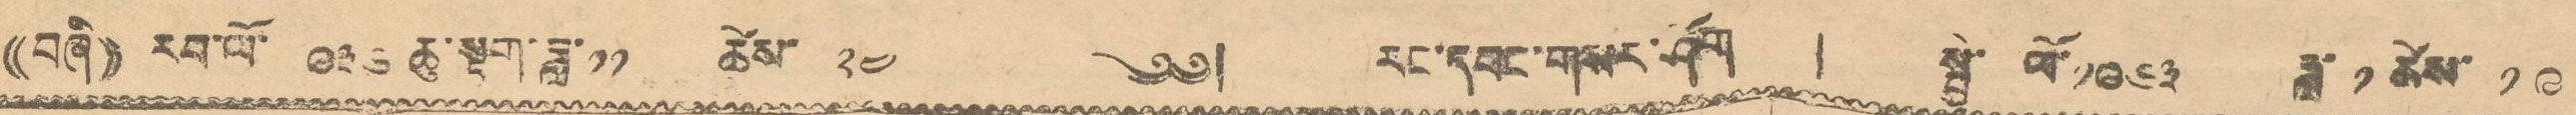((བཞི་)) རབ་ལོ་ ༩༣༦ ཆུ་སྟག་ཟླ་ ༡༡ ཚེས་ ༢༤ ༄༅། རང་དབང་གསར་ཤོག ། སྤྱི་ལོ་ ༡༩༦༣ ཟླ་ ༡ ཚེས་ ༡༩
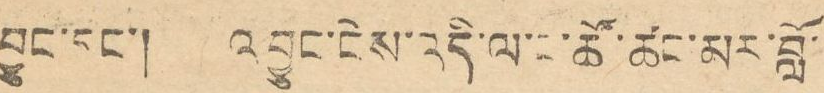བྱུང་དང་། འབྱུང་ངེས་འདི་ལ་ང་ཚོ་ཚང་མར་བློ་
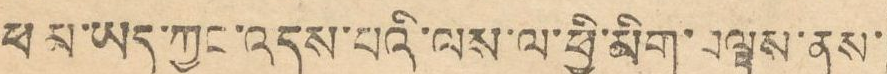ཕམ་ཡད་ཀྱང་འདས་པའི་ལས་ལ་ཕྱི་མིག་བལྟས་ནས་
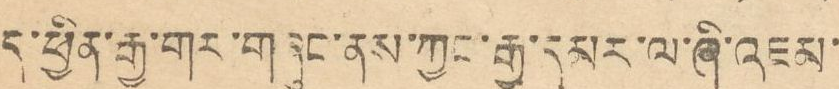ད་ཕྱིན་རྒྱ་གར་གཞུང་ནས་ཀྱང་རྒྱ་དམར་ལ་ཞི་འཇམ་
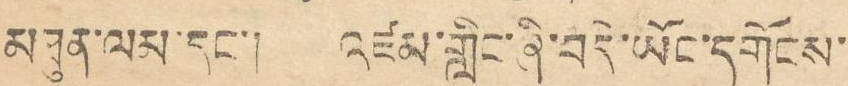མཐུན་ལམ་དང་། འཛམ་གླིང་ཞི་བདེ་ཡོང་དགོངས་
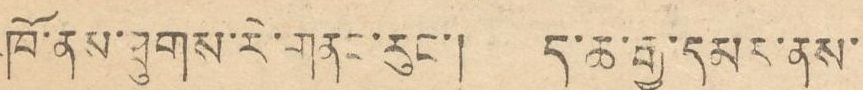ཁོ་ནས་ཐུགས་རེ་གནང་རུང་། ད་ཆ་རྒྱ་དམར་ནས་
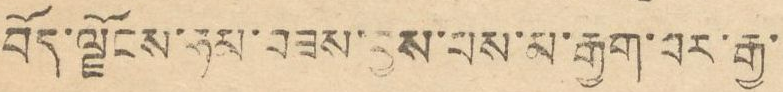བོད་ལྗོངས་ཧམ་བཟས་བྱས་པས་མ་རྒྱག་བར་རྒྱ་
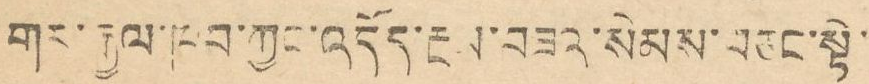གར་རྒྱལ་ཁབ་ཀྱང་འདོད་རྔམ་བཟའ་སེམས་བཅང་སྟེ་
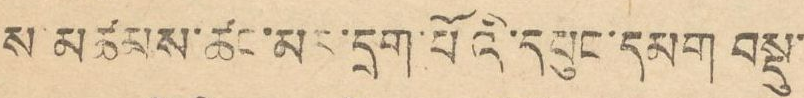ས་མཚམས་ཚང་མར་དྲག་པོའི་དཔུང་དམག བསྡུ་
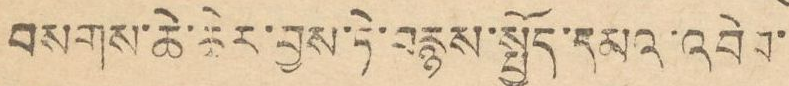བསགས་ཆེ་ཆེར་བྱས་ཏེ་བརྙས་སྤྱོད་དམའ་འབེབ་
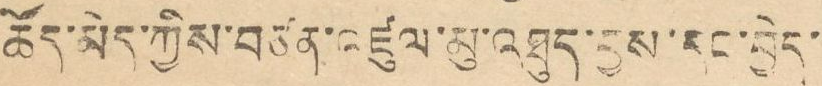ཚོད་མེད་ཀྱིས་བཙན་འཛུལ་མུ་འཐུད་བྱས་དང་བྱེད་
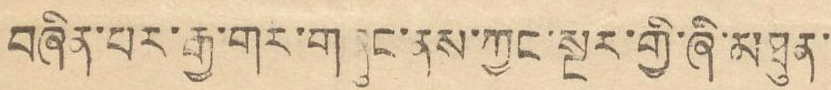བཞིན་པར་རྒྱ་གར་གཞུང་ནས་ཀྱང་སྔར་གྱི་ཞི་མཐུན་
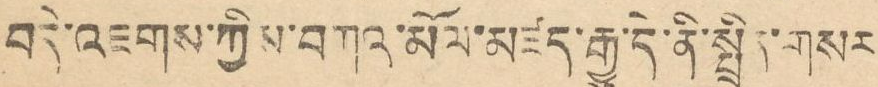བདེ་འཇགས་ཀྱིས་བཀའ་མོལ་མཛད་རྒྱུ་དེ་ནི་སྤྲིན་གསར
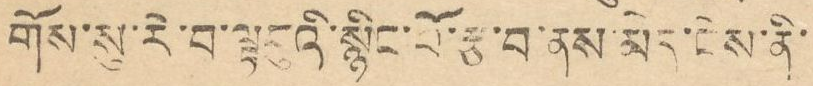གོས་སུ་རེ་བ་ལྟབུའི་སྙིང་པོ་རྩ་བ་ནས་མེད་ངེས་ནི་
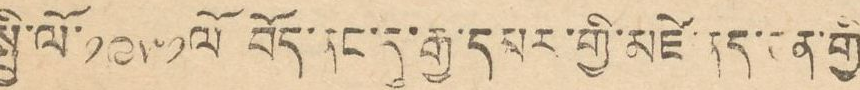སྤྱི་ལོ་༡༩༥༡ལོ བོད་ནང་དུ་རྒྱ་དམར་གྱི་མཛེ་ནད་ཅན་གྱི
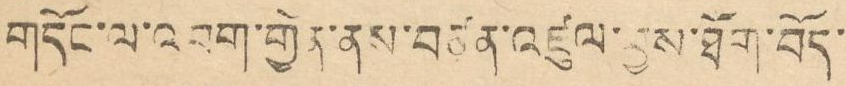གདོང་ལ་འབག་གྱིན་ནས་བཙན་འཛུལ་བྱས་ཐོག་བོད་
